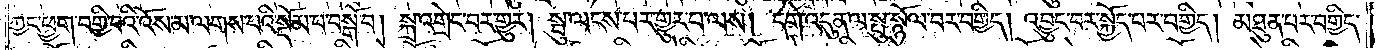ཀྱང་ཕྱག་བགྱི་བའི་འོས་མ་ལགས་པའི་སྡོམ་པ་བསྒོ་བ། སྐྲ་འགྲེང་བར་གྱུར། སྤུ་ལངས་པར་གྱུར་པ་ལས། དགེ་འདུན་ལ་སྤུ་སྙོལ་བར་བགྱིད། འབྱུང་བར་སྐྱོད་པར་བགྱིད། མཐུན་པར་བགྱིད་
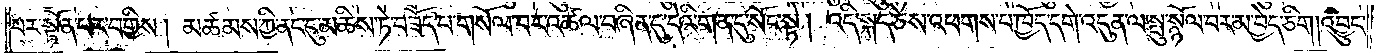པར་སྟོན་པར་བགྱིས། མཚམས་ཀྱི་ནང་དུ་མཆིས་ཏེ་བཟོད་པ་གསོལ་བར་འཚལ་བཞིན་དུ་དེའི་གན་དུ་སོང་སྟེ། འདི་སྐད་ཅེས་འཕགས་པ་ཁྱོད་དགེ་འདུན་ལ་སྤུ་སྙོལ་བར་མ་བྱེད་ཅིག །འབྱུང་
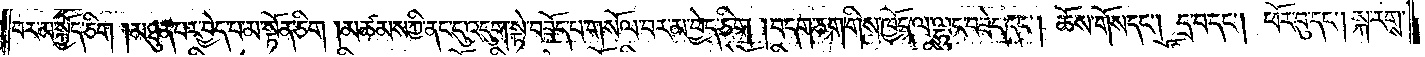བར་མ་སྐྱོད་ཅིག །མཐུན་པར་བྱེད་པ་མ་སྟོན་ཅིག །མཚམས་ཀྱི་ནང་དུ་འདུག་སྟེ་བཟོད་པ་གསོལ་བར་མ་བྱེད་ཅིག །བདག་ཅག་གིས་ཁྱོད་ལ་ལྷུང་བཟེད་དང༌། ཆོས་གོས་དང༌། དྲ་བ་དང༌། ཕོར་བུ་དང༌། སྐ་རགས་
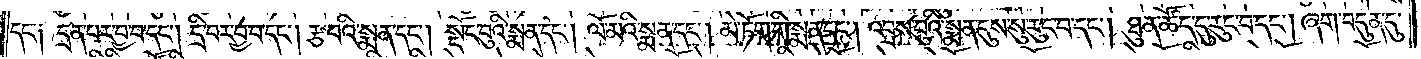དང་༑ དྲན་པར་བྱ་བ་དང༌། དྲི་བར་བྱ་བ་དང༌། རྩ་བའི་སྨན་དང༌། སྡོང་བུའི་སྨན་དང༌། ལོ་མའི་སྨན་དང༌། མེ་ཏོག་གི་སྨན་དང༌། འབྲས་བུའི་སྨན་དུས་སུ་རུང་བ་དང༌། ཐུན་ཚོད་དུ་རུང་བ་དང༌། ཞག་བདུན་དུ་
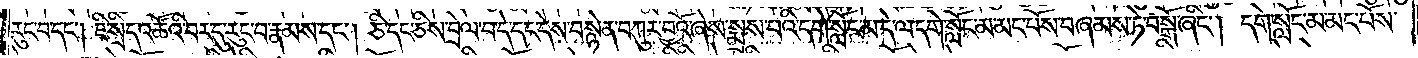རུང་བ་དང༌། ཇི་སྲིད་འཚོའི་བར་དུ་རུང་བ་རྣམས་དང༌། ཅི་དང་ཅིས་བྲེལ་བ་དེ་དང་དེས་བསྙེན་བཀུར་བྱའོ་ཞེས་སྨྲས་པའི་དགེ་སློང་མ་དེ་ལ་དགེ་སློང་མ་མང་པོས་བཞམས་ཏེ་བསྒོ་ཞིང༌། དགེ་སློང་མ་མང་པོས་
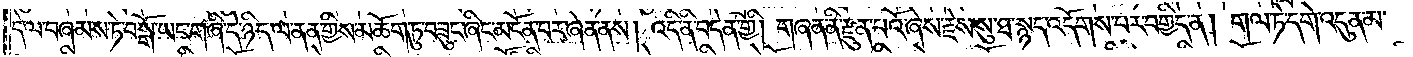དེ་ལ་བཞམས་ཏེ་བསྒོ་ཡང་གཞི་དེ་ཉིད་ལ་ནན་གྱིས་མཆོག་ཏུ་བཟུང་ཞིང་མངོན་པར་ཞེན་ནས། འདི་ནི་བདེན་གྱི། གཞན་ནི་རྫུན་པའོ་ཞེས་རྗེས་སུ་ཐ་སྙད་འདོགས་པར་བགྱིད་ན། གལ་ཏེ་དགེ་འདུན་མ་
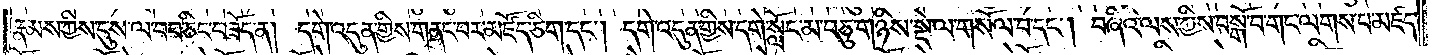རྣམས་ཀྱིས་དུས་ལ་བབ་ཅིང་བཟོད་ན། དགེ་འདུན་གྱིས་གནང་བར་མཛོད་ཅིག་དང༌། དགེ་འདུན་གྱིས་དགེ་སློང་མ་བཅུ་གཉིས་སྡེ་ལ་གསོལ་བ་དང༌། བཞིའི་ལས་ཀྱིས་བསྒོ་བ་གང་ལགས་པ་མཛད་
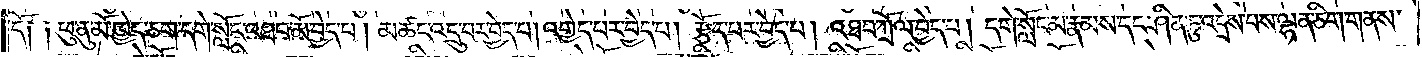དོ༑ ༑ཕུ་ནུ་མོ་ཁྱེད་ཅག་དགེ་སློང་འཐབ་མོ་བྱེད་པ། མཚང་འདྲུ་བར་བྱེད་པ། འགྱེད་པར་བྱེད་པ། རྩོད་པར་བྱེད་པ། འཐབ་ཀྲོལ་བྱེད་པ། དགེ་སློང་མ་རྣམས་དང་ཤིན་ཏུ་འདྲེས་པས་ལྷན་ཅིག་གནས་
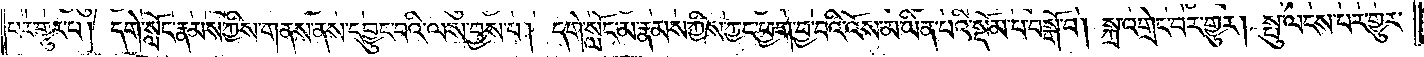པར་གྱུར་པ། དགེ་སློང་རྣམས་ཀྱིས་གནས་ནས་དབྱུང་བའི་ལས་བྱས་པ། དགེ་སློང་མ་རྣམས་ཀྱིས་ཀྱང་ཕྱག་བྱ་བའི་འོས་མ་ཡིན་པའི་སྡོམ་པ་བསྒོ་བ། སྐྲ་འགྲེང་བར་གྱུར། སྤུ་ལངས་པར་གྱུར་
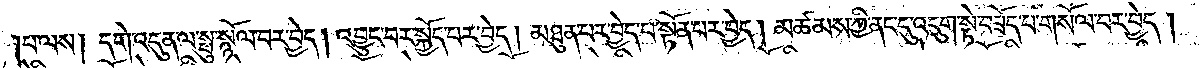པ་ལས། དགེ་འདུན་ལ་སྤུ་སྙོལ་བར་བྱེད། འབྱུང་བར་སྐྱོད་པར་བྱེད། མཐུན་པར་བྱེད་པ་སྟོན་པར་བྱེད། མཚམས་ཀྱི་ནང་དུ་འདུག་སྟེ་བཟོད་པ་གསོལ་བར་བྱེད།
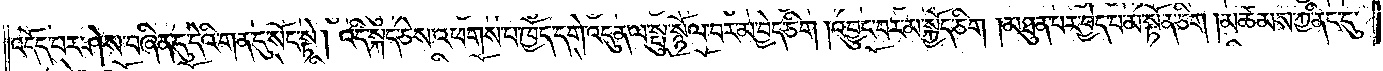འདོད་པར་ཤེས་བཞིན་དུ་དེའི་གན་དུ་སོང་སྟེ། འདི་སྐད་ཅེས་འཕགས་པ་ཁྱོད་དགེ་འདུན་ལ་སྤུ་སྙོལ་བར་མ་བྱེད་ཅིག །འབྱུང་བར་མ་སྐྱོད་ཅིག །མཐུན་པར་བྱེད་པ་མ་སྟོན་ཅིག །མཚམས་ཀྱི་ནང་དུ་
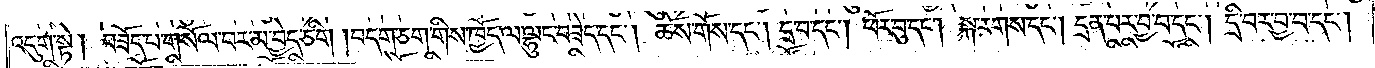འདུག་སྟེ། བཟོད་པ་གསོལ་བར་མ་བྱེད་ཅིག །བདག་ཅག་གིས་ཁྱོད་ལ་ལྷུང་བཟེད་དང༌། ཆོས་གོས་དང༌། དྲ་བ་དང༌། ཕོར་བུ་དང༌། སྐ་རགས་དང༌། དྲན་པར་བྱ་བ་དང༌། དྲི་བར་བྱ་བ་དང༌།
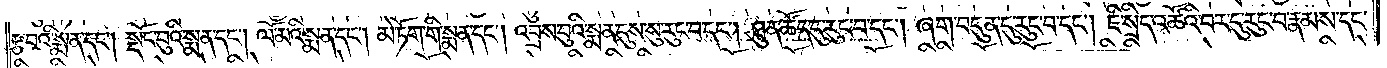རྩ་བའི་སྨན་དང༌། སྡོང་བུའི་སྨན་དང༌། ལོ་མའི་སྨན་དང༌། མེ་ཏོག་གི་སྨན་དང༌། འབྲས་བུའི་སྨན་དུས་སུ་རུང་བ་དང༌། ཐུན་ཚོད་དུ་རུང་བ་དང༌། ཞག་བདུན་དུ་རུང་བ་དང༌། ཇི་སྲིད་འཚོའི་བར་དུ་རུང་བ་རྣམས་དང་
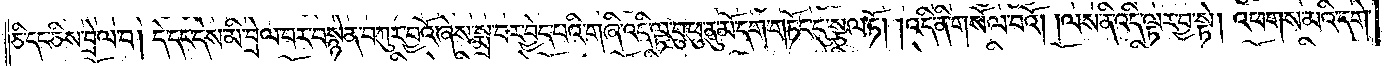ཅི་དང་ཅིས་བྲེལ་བ། དེ་དང་དེས་མི་བྲེལ་བར་བསྙེན་བཀུར་བྱའོ་ཞེས་སྨྲ་བར་བྱེད་པའི་གཞི་འདི་ལྟ་བུ་ཕུ་ནུ་མོ་དག་གཏོང་དུ་སྩལ་ཏོ། །འདི་ནི་གསོལ་བའོ། །ལས་ནི་འདི་ལྟར་བྱ་སྟེ། འཕགས་མའི་དགེ་
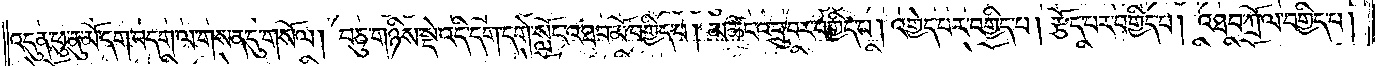འདུན་ཕུ་ནུ་མོ་དག་བདག་ལ་གསན་དུ་གསོལ། བཅུ་གཉིས་སྡེ་འདི་དག་དགེ་སློང་འཐབ་མོ་བགྱིད་པ། མཚང་འབྲུ་བར་བགྱིད་པ། འགྱེད་པར་བགྱིད་པ། རྩོད་པར་བགྱིད་པ། འཐབ་ཀྲོལ་བགྱིད་པ།
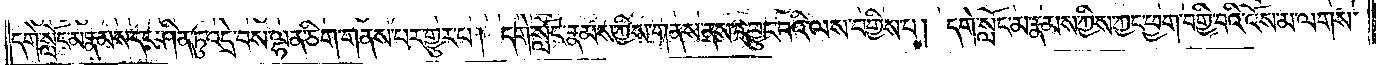དགེ་སློང་མ་རྣམས་དང་ཤིན་ཏུ་འདྲེ་བས་ལྷན་ཅིག་གནས་པར་གྱུར་པ། དགེ་སློང་རྣམས་ཀྱིས་གནས་ནས་དབྱུང་བའི་ལས་བགྱིས་པ། དགེ་སློང་མ་རྣམས་ཀྱིས་ཀྱང་ཕྱག་བགྱི་བའི་འོས་མ་ལགས་
